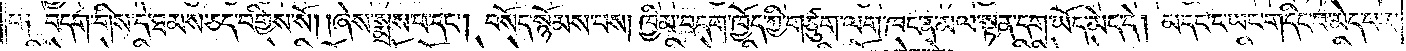པ༑ བདག་གིས་དེ་ཐམས་ཅད་བགྱིས་སོ། །ཞེས་སྨྲས་པ་དང༌། བསོད་སྙོམས་པས། ཁྱིམ་བདག་ཁྱོད་ཀྱི་གཙུག་ལག་ཁང་ན་མལ་སྟན་དག་ཡོད་མེད་དེ། མདང་ང་ཡང་གདིང་བ་མེད་པར་
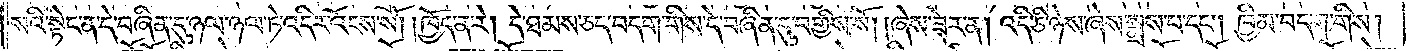སའི་སྟེང་ན་དེ་བཞིན་དུ་ཉལ་ཉལ་ཏེ་འདིར་འོངས་སོ། །ཁྱོད་ན་རེ། དེ་ཐམས་ཅད་བདག་གིས་དེ་བཞིན་དུ་བགྱིས་སོ། །ཞེས་ཟེར་ན། འདི་ཅི་ཉེས་ཞེས་སྨྲས་པ་དང༌། ཁྱིམ་བདག་གིས།
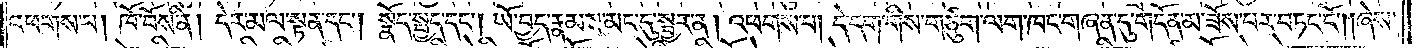འཕགས་པ། ཁོ་བོས་ནི། དེར་མལ་སྟན་དང༌། སྣོད་སྤྱད་དང༌། ཡོ་བྱད་རྣམས་མང་དུ་སྦྱར་ན། འཕགས་པ། དེ་དག་གིས་གཙུག་ལག་ཁང་གཞན་དུ་གདོན་མ་ཟོས་པར་བཏང་ངོ༌། །ཞེས་
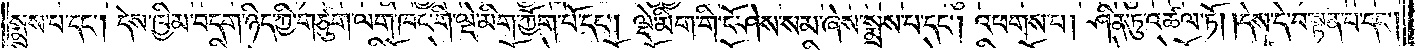སྨྲས་པ་དང༌། དེས་ཁྱིམ་བདག་ཉིད་ཀྱི་གཙུག་ལག་ཁང་གི་ལྡེ་མིག་ཀྱོག་པོ་དང༌། ལྡེ་མིག་གི་ངོ་ཤེས་སམ་ཞེས་སྨྲས་པ་དང༌། འཕགས་པ། ཤིན་ཏུ་འཚལ་ཏོ། །དེས་དེ་བསྟན་པ་དང༌།
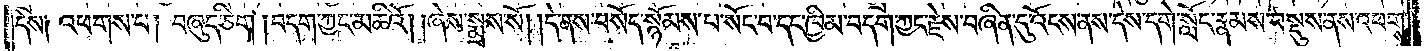དེས། འཕགས་པ། བཞུད་ཅིག །བདག་ཀྱང་མཆིའོ། །ཞེས་སྨྲས་སོ། །དེ་ནས་བསོད་སྙོམས་པ་སོང་བ་དང་ཁྱིམ་བདག་ཀྱང་རྗེས་བཞིན་དུ་འོངས་ནས་དེས་དགེ་སློང་རྣམས་བསྡུས་ནས་འཕགས་
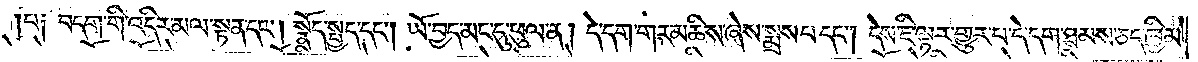པ༑ བདག་གི་འདིར་མལ་སྟན་དང༌། སྣོད་སྤྱད་དང༌། ཡོ་བྱད་མང་དུ་ཕུལ་ན། དེ་དག་གར་མཆིས་ཞེས་སྨྲས་པ་དང༌། དེས་ཇི་ལྟར་གྱུར་པ་དེ་དག་ཐམས་ཅད་ཁྱིམ་
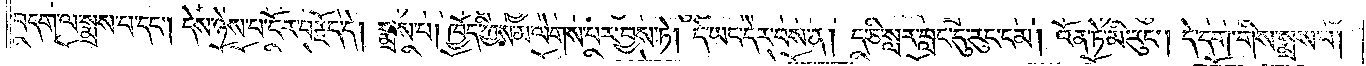བདག་ལ་སྨྲས་པ་དང༌། དེས་ཉེས་པ་ངོར་བརྗོད་དེ། སྨྲས་པ། ཁྱོད་ཀྱིས་མ་ལེགས་པར་བྱས་ཏེ། དེ་ཡང་དེར་བས་ན། ད་ཅི་སླར་བླང་དུ་རུང་ངམ། འོན་ཏེ་མི་རུང༌། དེ་དག་གིས་སྨྲས་པ།
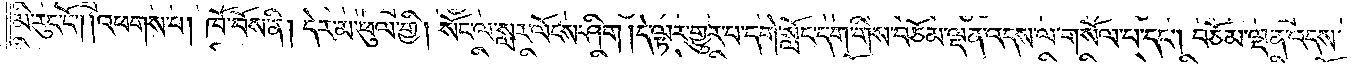མི་རུང་ངོ༌། །འཕགས་པ། ཁོ་བོས་ནི། དེར་མ་ཕུལ་གྱི། སོང་ལ་སླར་ལོངས་ཤིག །དེ་ལྟར་གྱུར་པ་དགེ་སློང་དག་གིས་བཅོམ་ལྡན་འདས་ལ་གསོལ་པ་དང༌། བཅོམ་ལྡན་འདས་
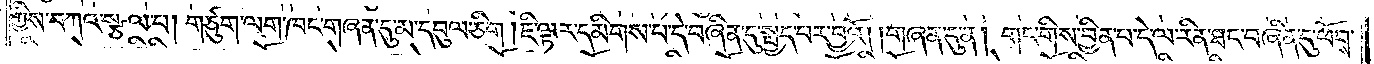ཀྱིས་བཀའ་སྩལ་པ། གཙུག་ལག་ཁང་གཞན་དུ་མ་དབུལ་ཅིག །ཇི་ལྟར་དམིགས་པ་དེ་བཞིན་དུ་སྤྱད་པར་བྱའོ། །གཞན་དུ་ན། གང་གིས་བྱིན་པ་དེ་ལ་རིན་ཐང་བཞིན་དུ་ཕོབས་
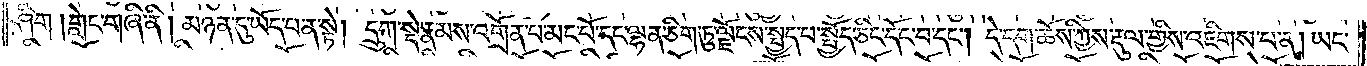ཤིག །གླེང་གཞི་ནི། མཉན་དུ་ཡོད་པ་ན་སྟེ། དྲུག་སྡེ་རྣམས་འགྲོན་པ་མང་པོ་དང་ལྷན་ཅིག་ཏུ་ལྗོངས་སྤྱད་པ་སྤྱོད་ཅིང་དོང་བ་དང༌། དེ་དག་ཆོས་ཀྱིས་རྡུལ་གྱིས་འཇིགས་པ་ན། ཡང་
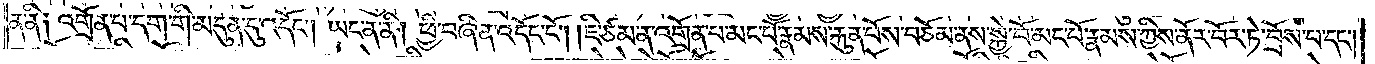ན་ནི༑ འགྲོན་པ་དག་གི་མདུན་དུ་འདོང༌། ཡང་ན་ནི། ཕྱི་བཞིན་འདོང་ངོ༌། །ཇི་ཙམ་ན་འགྲོན་པ་མང་པོ་རྣམས་རྐུན་པོས་བཅོམ་ནས་སྐྱེ་བོ་མང་པོ་རྣམས་ཀྱིས་ནོར་བོར་ཏེ་བྲོས་པ་དང༌།
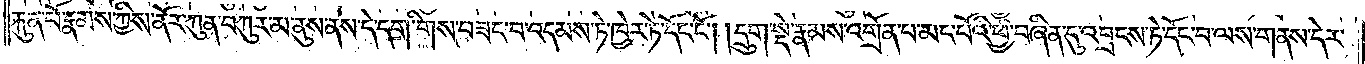རྐུན་པོ་རྣམས་ཀྱིས་ནོར་ཀུན་བཀུར་མ་ནུས་ནས་དེ་དག་གིས་བཟང་བ་འདམས་ཏེ་ཁྱེར་ཏེ་དོང་ངོ༌། །དྲུག་སྡེ་རྣམས་འགྲོན་པ་མང་པོའི་ཕྱི་བཞིན་དུ་འབྲངས་ཏེ་དོང་བ་ལས་གནས་དེར་
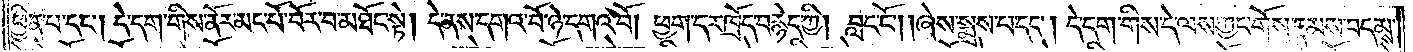ཕྱིན་པ་དང༌། དེ་དག་གིས་ནོར་མང་པོ་བོར་བ་མཐོང་སྟེ། དེ་ནས་དགའ་བོ་ཉེ་དགའ་བོ། ཕྱག་དར་ཁྲོད་བརྙེད་ཀྱི། བླང་ངོ༌། །ཞེས་སྨྲས་པ་དང༌། དེ་དག་གིས་དེ་ལས་ཀྱང་གོས་རྣམས་བདམས་
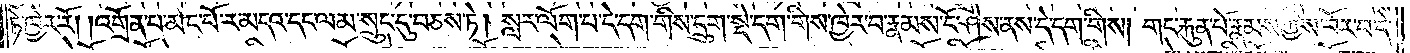ཏེ་ཁྱེར་རོ། །འགྲོན་པ་མང་པོ་ར་མདའ་དང་ལམ་སྲུང་དུ་བཅས་ཏེ། སླར་ལོག་པ་དེ་དག་གིས་དྲུག་སྡེ་དག་གིས་ཁྱེར་བ་རྣམས་ངོ་ཤེས་ནས་དེ་དག་གིས། གང་རྐུན་པོ་རྣམས་ཀྱིས་བོར་བ་དེ་
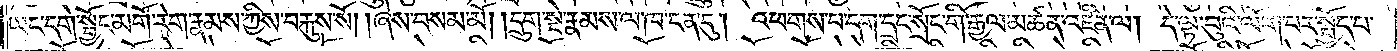ཡང་དགེ་སྦྱོང་མགོ་རེག་རྣམས་ཀྱིས་བརྐུས་སོ། །ཞེས་བསམ་མོ། །དྲུག་སྡེ་རྣམས་ལ་ཁ་ངན་དུ། འཕགས་པ་དག་དྲང་སྲོང་གི་རྒྱལ་མཚན་འཛིན་ལ། དེ་ལྟ་བུའི་ལོག་པར་སྤྱོད་པ་
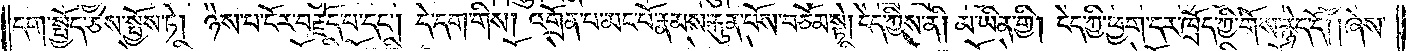དག་སྤྱོད་ཅེས་སྤྱོས་ཏེ། ཉེས་པ་ངོར་བརྗོད་པ་དང༌། དེ་དག་གིས། འགྲོན་པ་མང་པོ་རྣམས་རྐུན་པོས་བཅོམ་སྟེ། ངེད་ཀྱིས་ནི། མ་ཡིན་གྱི། ངེད་ཀྱི་ཕྱག་དར་ཁྲོད་ཀྱི་གོས་རྙེད་དོ། །ཞེས་
